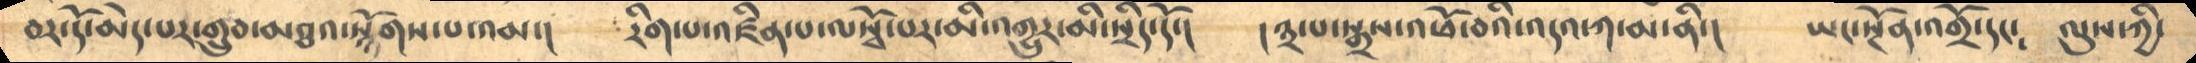བར་དོ་མེད་པར་གྲུབ་མཐའ་སྙོགས་པ་འམ་།     རིག་པ་འཛིན་པ་ལསྭོ་པར་མི་འགྱུར་མི་སྲིད་དོ་།    །༣་པ་སྒྲས་འཕོ་བའི་འདའ་ཀ་མ་ནི་།    ཡང་སྔོན་འགྲོ་དང༴   ལུས་ཀྱི་
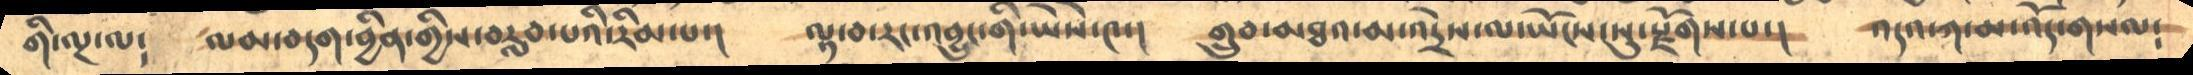གི་ལྔ་ལ༴    ལམ་བདག་བྱིན་གྱིས་བརླབ་པའི་རིམ་པ་།      ལྟ་བ་རང་འབྱུང་གི་ཡཻས་༤་།    གྲུབ་མཐའ་མ་འདྲེས་ལ་ཡོངས་སུ་རྫོགས་པ་།   འདའ་ཀ་མ་འོད་གསལ༴
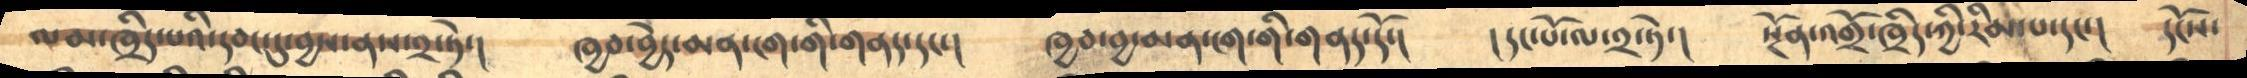ལམ་ཁྲིད་པའི་དབང་དུ་བྱས་ནས་༢་ཏེ་།       ཁྱབ་བྱེད་མན་ངག་གི་གནད་དང་།       ཁྱབ་བྱ་མན་ངག་གི་གནད་དོ་།    །དང་པོ་ལ་༢་ཏེ་།     སྔོན་འགྲོ་ཁྲིད་ཀྱི་རིམ་པ་དང་།    དངོས་
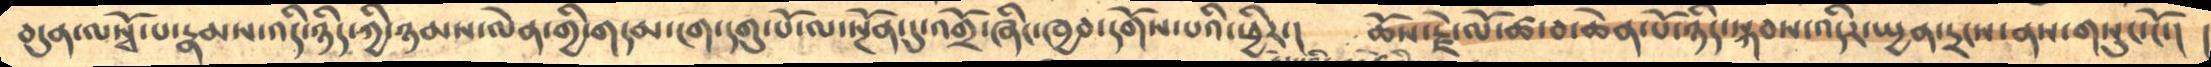བདུན་ལསྭོ་པ་རྣམས་འདི་ཉིད་ཀྱི་ཉམས་ལེན་གྱི་གདམ་ངག་དགུ་པོ་ལ་སྔོན་དུ་འགྲོ་ཞིང་ཁྱབ་དགོས་པའི་ཕྱིར་།    ཆོས་རྗེ་ལོ་ཚ་བ་ཆེན་པོ་ཉིད་སྐབས་འདིར་སྤྱན་དྲངས་ནས་གསུང་ངོ་།  །
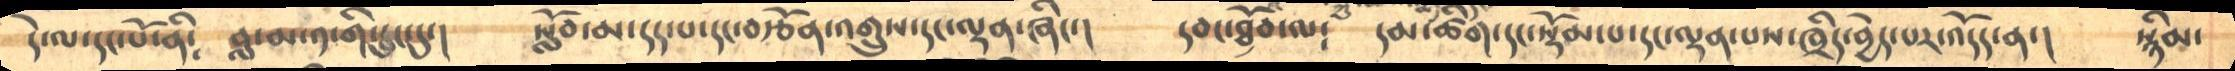དེ་ལ་དང་པོ་ནི༴   བླ་མ་༡་གི་དྲུང་དུ་།    སློབ་མ་དད་པ་དང་བརྩོན་འགྲུས་དང་ལྡན་ཞིང་།      དབང་ཐོབ་ལ༴    དམ་ཚིག་དང་སྡོམ་པ་དང་ལྡན་པས་ཁྲིད་བྱེད་པར་འདོད་ན་།    སྙིམ་
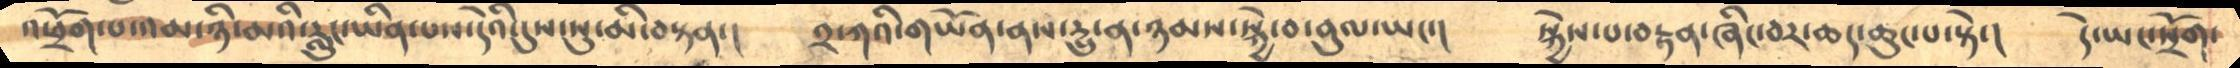འཕྲོག་པ་འམ་ཉི་མའི་རླུང་ཡིན་པས་དེའི་དུས་སུ་མི་བསྟན་།     ༢་ཀའི་གཡོན་ནས་དྱུ་ན་ཉམས་སྐྱེ་བ་བུལ་ཡང་།     སྐྱེས་པ་བརྟན་ཞིང་བར་ཆད་ཆུང་པ་སྟེ་།      དེ་ཡང་སྲོག་
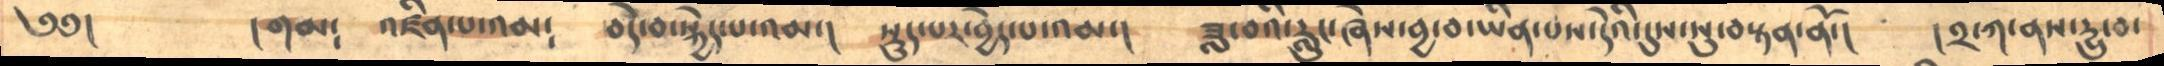༄༅།     །གམ༴   འཛིན་པ་འམ༴   བདེ་བ་སྐྱེད་པ་འམ་།     སྡུད་པར་བྱེད་པ་འམ་།    ཟླ་བའི་རླུང་ཞེས་བྱ་བ་ཡིན་པས་དེའི་དུས་སུ་བསྟན་ནོ་།       །༢་ཀ་ནས་དྱུ་བ་
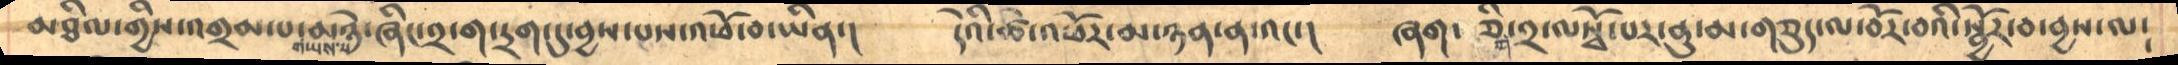མཐིལ་གྱིས་འགྲམ་པ་གཡས་པ་མཉེ་ཞིང་༢་ག་དྲག་དུ་བྱས་པས་འཕོ་བ་ཡིན་།  དེའི་ཚེ་འཕོར་མ་ཉན་ན་འང་།  ཞག་ཅིག་༢་ལསྭོ་པར་ནུ་མ་གཅུད་ལ་བོར་བའི་སྦྱོར་བ་བྱས་ལ༴
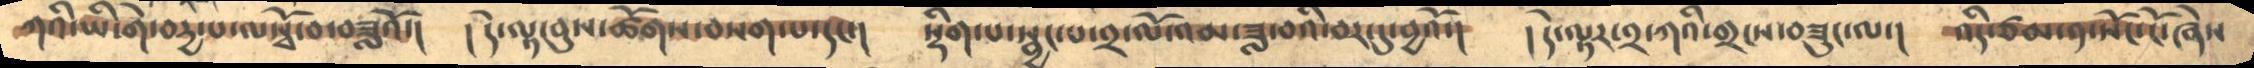ཀའི་ཡི་གེ་བདྱ་པ་ལསྭོ་བ་བཟླའོ་།       །དེ་ལྟ་བུས་ཚོགས་བསག་པ་དང་།     སྡིག་པ་སྦྱང་པ་༢་ལོ་འམ་ཟླ་བའི་བར་དུ་བྱའོ་།    །དེ་ལྟར་༢་ཀའི་གྲངས་བཟུང་ལ་།    འདི་ཙམ་༡་སོང་ངོ་ཞེས
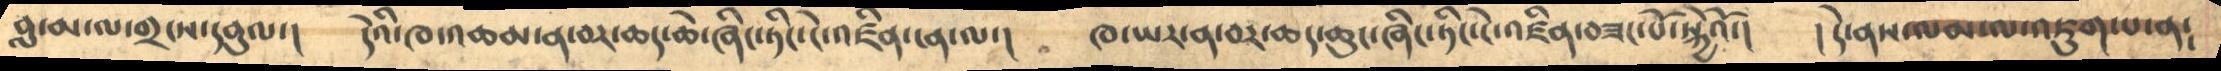བླ་མ་ལ་གྲངས་དབུལ་།     དེའི་ཁ་འཆམ་ན་བར་ཆད་ཆེ་ཞིང་ཏིང་ངེ་འཛིན་ངན་ལ་།     ཁ་ཡར་ན་བར་ཆད་ཆུང་ཞིང་ཏིང་ངེ་འཛིན་བཟང་པོ་སྐྱེའོ་།     །དེ་ནས་ལམ་ལ་འཇུག་པ་ན༴
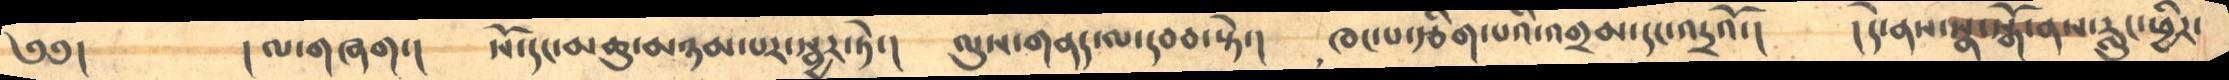༄༅།      །ལ་གཞག་།   སོ་དང་མཆུ་མཉམ་པར་སྦྱར་ཏེ་།     ལུས་གནད་ལ་དབབ་སྟེ་།    ཁང་པ་རྩིག་པའི་འགྲམ་དང་འདྲའོ་།   །དེ་ནས་སྣ་སྒོ་ནས་རླུང་ཕྱིར་
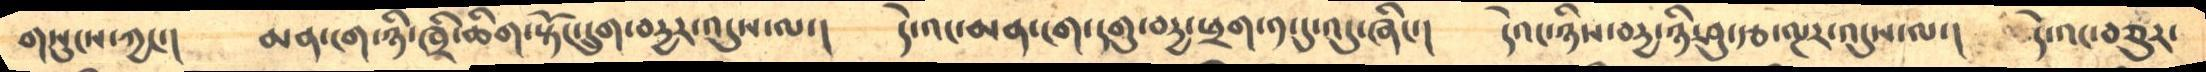གསུངས་ཀྱང་།      མན་ངག་ཉི་ཁྲི་ཆིག་སྟོང་དྲུག་བདྱར་འདུས་ལ་།     དེ་འང་མན་ངག་དགུ་བདྱ་ཕྲག་༡་དུ་འདུ་ཞིང་།    དེའང་ཉིས་བདྱ་ཉི་ཤུ་རྩ་ལྔར་འདུས་ལ་།    དེ་འང་བཅུར་
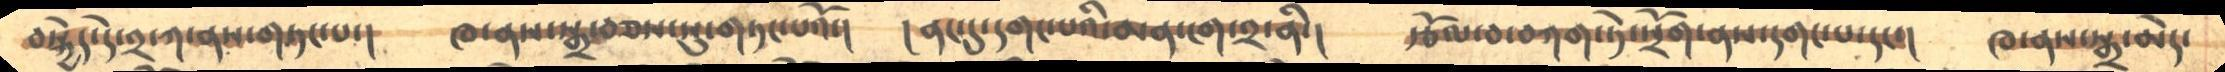བསྐྱེད་དེ་༢་ཀ་ནས་གཏང་པ་།     ཁ་ནས་སྒྲ་བཅས་སུ་གཏང་པའོ་།    །ནང་དུ་དགང་པའི་མན་ངག་༢་ནི་།   རྩོལ་བ་བཀག་ཏེ་སྲོག་ནས་དགང་པ་དང་།    ཁ་ནས་སྒྲ་མེད་
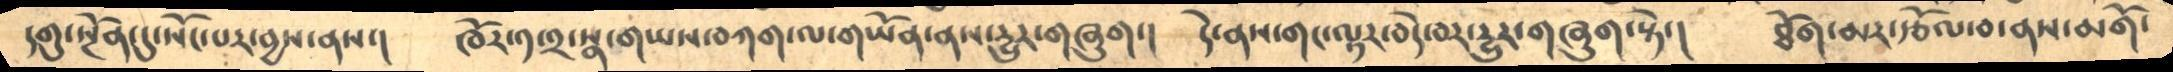དགུ་སྔོན་དུ་སོང་པར་བྱས་ནས་།     ཁོར་༡་༢་སྣ་གཡས་བཀག་ལ་གཡོན་ནས་དྱུར་གཞུག་།     དེ་ནས་གང་ལྟར་བདེ་བར་དྱུར་གཞུག་སྟེ་།    ཐོག་མར་རྩོལ་བ་ནས་མགོ་
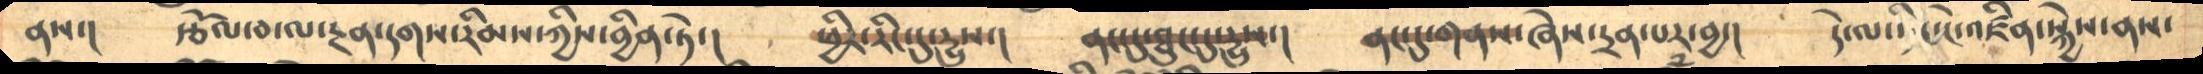ནས་།     རྩོལ་བ་ལ་རྔན་དགས་རིམས་ཀྱིས་བྱིན་ཏེ་།     ཕྱི་རིང་དུ་དྱུས་།     ནང་དུ་ཐུང་དུ་དྱུས་།    ནང་དུ་གནས་ཞེས་དྲན་པར་བྱ་།     དེ་ལ་ཏིང་ངེ་འཛིན་སྐྱེས་ནས་
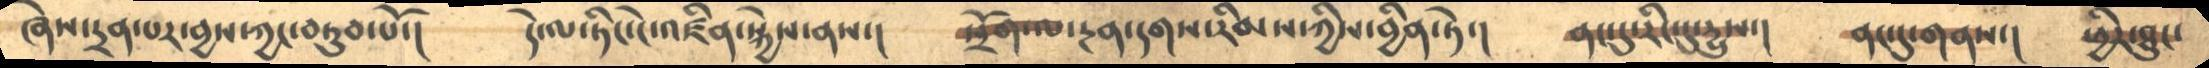ཞེས་དྲན་པར་བྱས་ཀྱང་བཏུབ་པོ་།    དེ་ལ་ཏིང་ངེ་འཛིན་སྐྱེས་ནས་།     སྲོག་ལ་རྔན་དགས་རིམས་ཀྱིས་བྱིན་ཏེ་།     ནང་དུ་རིང་དུ་དྱུས་།    ནང་དུ་གནས་།   ཕྱིར་ཐུང་
